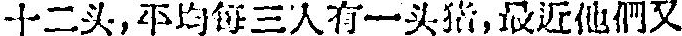十二头，平均每三人有一头猪，最近他們又
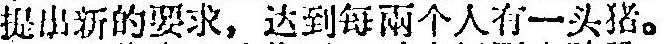提出新的要求，达到每兩个人有一头猪。
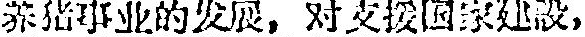养猪事业的发展，对支援国家建設，
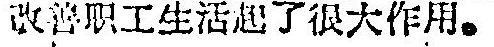改善职工生活起了很大作用。
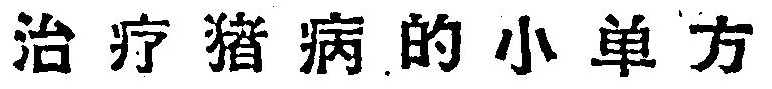治 疗 猪 病 的 小 单 方
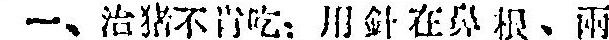一、治猪不肯吃：用針在鼻根、两
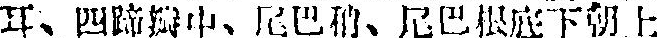耳、四蹄瓣中、尾巴稍、尾巴根底下朝上
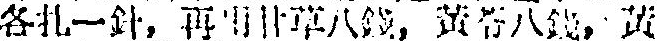各扎一針，再用甘草八錢，黃苓八錢，黃
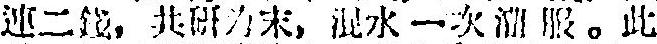連二錢，共研为末，混水一次溜服。此
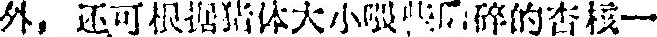外，还可根据猪体大小喂些压碎的杏核一
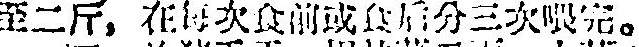至二斤，在每次食前或食后分三次喂完。
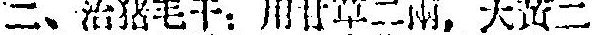二、治猪毛干：月甘草二兩，大黃二
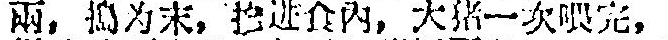兩，搗为末，掺进食內，大猪一次喂完，
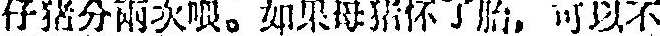仔猪分兩次喂。如果母猪怀了胎，可以不
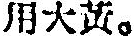用大黄。
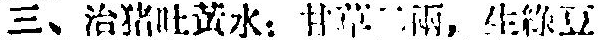三、治猪吐黄水：甘草二兩，生綠豆
